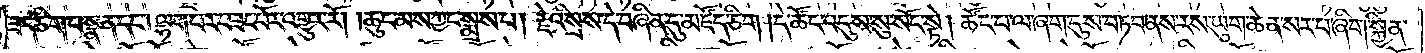ཟད་ཅིག་བསྣན་དང༌། ལྷག་པར་བཟང་པོར་འགྱུར་རོ། །ཆུང་མས་ཀྱང་སྨྲས་པ། རྗེའི་སྲས་དེ་བཞིན་དུ་མཛོད་ཅིག །དེ་ཚོང་འདུས་སུ་སོང་སྟེ། ཚོང་པ་ལ་ཞག་དུས་བཏབ་ནས་རས་ཡུག་ཆེན་སར་པ་ཞིག་སྐྱིན་
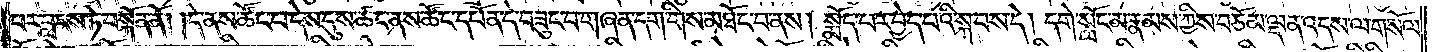པར་བླངས་ཏེ་བསྐོན་ནོ། །དེ་ནས་ཚོང་པ་དེས་དུས་ཚང་ནས་ཚོང་དཔོན་དེ་བཟུང་བ་གཞན་དག་གིས་མཐོང་བ་ནས། སྨོད་པར་བྱེད་པའི་སྐབས་དེ། དགེ་སློང་མ་རྣམས་ཀྱིས་བཅོམ་ལྡན་འདས་ལ་གསོལ་
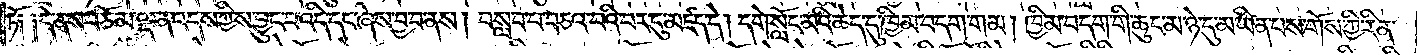ཏོ༑ ༑དེ་ནས་བཅོམ་ལྡན་འདས་ཀྱིས་བྱུང་བ་འདི་དང་ཞེས་བྱ་བ་ནས། བསླབ་པ་བཅའ་བའི་བར་དུ་མཛད་དེ། དགེ་སློང་མའི་ཆེད་དུ་ཁྱིམ་བདག་གམ། ཁྱིམ་བདག་གི་ཆུང་མ་ཉེ་དུ་མ་ཡིན་པས་གོས་ཀྱི་རིན་
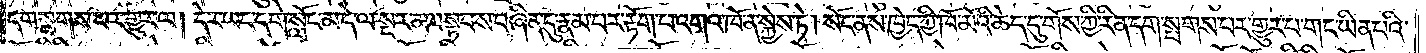དག་སྦགས་པར་གྱུར་ལ། དེར་ཡང་དགེ་སློང་མ་དེ་ལ་སྔར་མ་བསྟབས་བཞིན་དུ་རྣམ་པར་རྟོག་པ་འགའ་ཁོ་ན་སྐྱེས་ཏེ། སོང་ནས་ཁྱེད་ཀྱི་ཁོ་མོའི་ཆེད་དུ་གོས་ཀྱི་རིན་དག་སྤགས་པར་གྱུར་པ་གང་ཡིན་པའི་
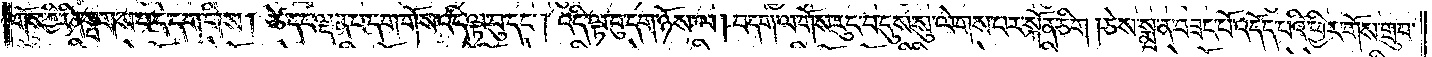གོས་ཀྱི་རིན་སྤགས་པ་དེ་དག་གིས། ཚེ་དང་ལྡན་པ་དག་གོས་འདི་ལྟ་བུ་དང༌། འདི་ལྟ་བུ་དག་ཉོས་ལ། བདག་ལ་གོས་རུང་བ་དུས་སུ་ལེགས་པར་སྐོན་ཅིག །ཅེས་སྨྲ་ན་བཟང་པོ་འདོད་པའི་ཕྱིར་གོས་གྲུབ་
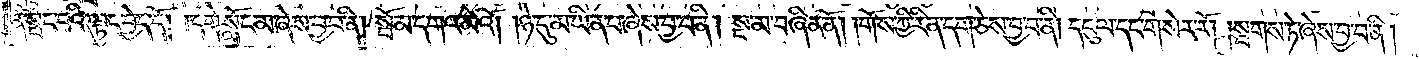ན་སྤང་བའི་ལྟུང་བྱེད་དོ། །དགེ་སློང་མ་ཞེས་བྱ་བ་ནི། སྦོམ་དགའ་མོའོ། །ཉེ་དུ་མ་ཡིན་པ་ཞེས་བྱ་བ་ནི། སྔ་མ་བཞིན་ནོ། །གོས་ཀྱི་རིན་དག་ཅེས་བྱ་བ་ནི། དངུལ་དང་གསེར་རོ། །སྦགས་ཏེ་ཞེས་བྱ་བ་ནི །
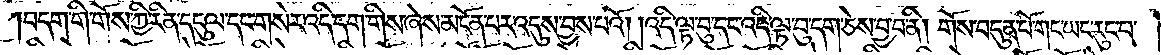བདག་གི་གོས་ཀྱི་རིན་དངུལ་དང་གསེར་འདི་དག་གིས་ཞེས་མངོན་པར་འདུས་བྱས་པའོ། །འདི་ལྟ་བུ་དང་འདི་ལྟ་བུ་དག་ཅེས་བྱ་བ་ནི། གོས་བདུན་པོ་གང་ཡང་རུང་བ་
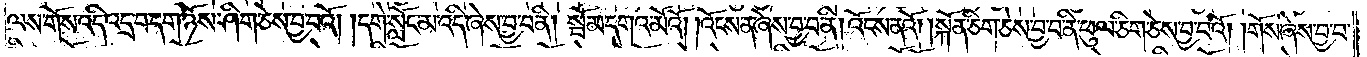ལས་གོས་འདི་འདྲ་བ་དག་ཉོས་ཤིག་ཅེས་བྱ་བའོ། །དགེ་སློང་མ་འདི་ཞེས་བྱ་བ་ནི། སྦོམ་དགའ་མོའོ། །འོངས་ན་ཞེས་བྱ་བ་ནི། འོངས་ནའོ། །སྐོན་ཅིག་ཅེས་བྱ་བ་ནི་ཕུལ་ཅིག་ཅེས་བྱ་བའོ། །གོས་ཞེས་བྱ་བ་
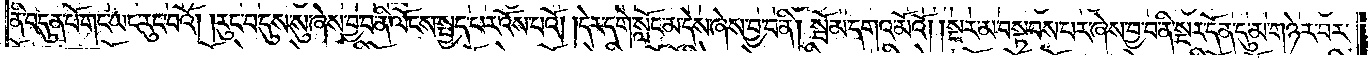ནི་བདུན་པོ་གང་ཡང་རུང་བའོ། །རུང་བ་དུས་སུ་ཞེས་བྱ་བ་ནི་ལོངས་སྤྱད་པར་འོས་པའོ། །དེར་དགེ་སློང་མ་དེས་ཞེས་བྱ་བ་ནི། སྦོམ་དགའ་མོའོ། །སྔར་མ་བསྟབས་པར་ཞེས་བྱ་བ་ནི་སྔར་དོན་དུ་མ་གཉེར་བར་
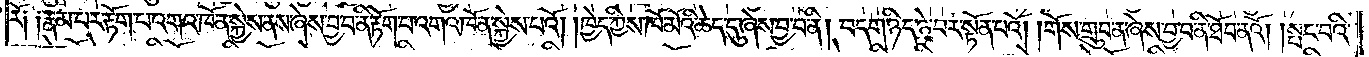རོ༑ ༑རྣམ་པར་རྟོག་པ་འགའ་ཁོ་ན་སྐྱེས་ནས་ཞེས་བྱ་བ་ནི་རྟོག་པ་འགའ་ཁོ་ན་སྐྱེས་པའོ། །ཁྱེད་ཀྱིས་ཁོ་མོའི་ཆེད་དུ་ཞེས་བྱ་བ་ནི། བདག་ཉིད་ཉེ་བར་སྟོན་པའོ། །གོས་གྲུབ་ན་ཞེས་བྱ་བ་ནི་ཐོབ་ནའོ། །སྤང་བའི་
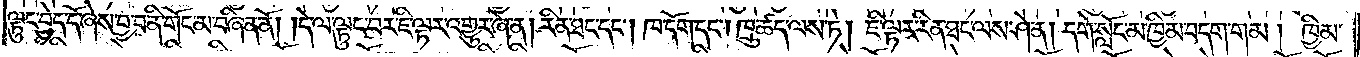ལྟུང་བྱེད་དོ་ཞེས་བྱ་བ་ནི་གོང་མ་བཞིན་ནོ། །དེ་ལ་ལྟུང་བར་ཇི་ལྟར་འགྱུར་ཞེ་ན། རིན་ཐང་དང༌། ཁ་དོག་དང༌། ཁྲུ་ཚད་ལས་ཏེ། ཇི་ལྟར་རིན་ཐང་ལས་ཤེ་ན། དགེ་སློང་མ་ཁྱིམ་བདག་གམ། ཁྱིམ་
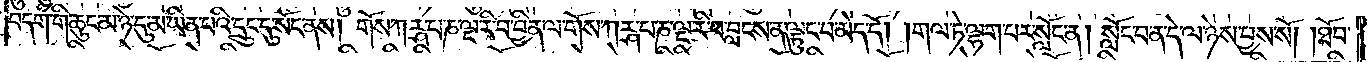བདག་གི་ཆུང་མ་ཉེ་དུ་མ་ཡིན་པའི་དྲུང་དུ་སོང་ནས། གོས་ཀཪྴ་པ་ཎ་ལྔ་རི་བ་བྱིན་ལ་གོས་ཀཪྴ་པ་ཎ་ལྔ་རི་བ་བླངས་ན་ལྟུང་བ་མེད་དོ། །གལ་ཏེ་ལྷག་པར་སློང་ན། སློང་བ་ན་དེ་ལ་ཉེས་བྱས་སོ། །ཐོབ་
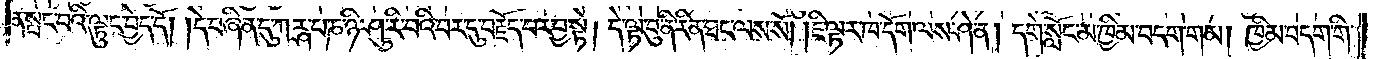ན་སྤང་པའི་ལྟུང་བྱེད་དོ། །དེ་བཞིན་དུ་ཀཪྴ་པ་ཎ་ཉི་ཤུ་རི་བའི་བར་དུ་བརྗོད་པར་བྱ་སྟེ། དེ་ལྟ་བུ་ནི་རིན་ཐང་ལས་སོ། །ཇི་ལྟར་ཁ་དོག་ལས་ཤེ་ན། དགེ་སློང་མ་ཁྱིམ་བདག་གམ། ཁྱིམ་བདག་གི་
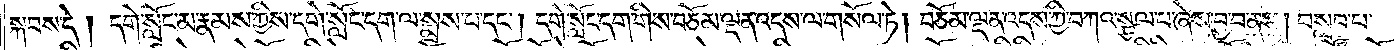སྐབས་དེ། དགེ་སློང་མ་རྣམས་ཀྱིས་དགེ་སློང་དག་ལ་སྨྲས་པ་དང༌། དགེ་སློང་དག་གིས་བཅོམ་ལྡན་འདས་ལ་གསོལ་ཏེ། བཅོམ་ལྡན་འདས་ཀྱི་བཀའ་སྩལ་པ་ཞེས་བྱ་བ་ནས། བསླབ་པ་
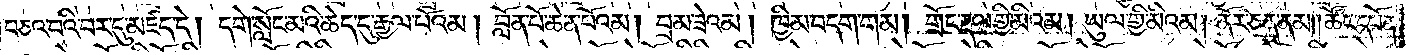བཅའ་བའི་བར་དུ་མཛད་དེ། དགེ་སློང་མའི་ཆེད་དུ་རྒྱལ་པོའམ། བློན་པོ་ཆེན་པོའམ། བྲམ་ཟེའམ། ཁྱིམ་བདག་གམ། གྲོང་རྡལ་གྱི་མིའམ། ཡུལ་གྱི་མིའམ། ནོར་ཅན་ནམ། ཚོང་དཔོན་
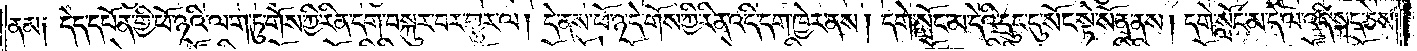ནམ༑ དེད་དཔོན་གྱི་ཕོ་ཉའི་ལག་ཏུ་གོས་ཀྱི་རིན་དག་བསྐུར་བར་གྱུར་ལ། དེ་ནས་ཕོ་ཉ་དེ་གོས་ཀྱི་རིན་འདི་དག་ཁྱེར་ནས། དགེ་སློང་མ་དེའི་དྲུང་དུ་སོང་སྟེ་སོན་ནས། དགེ་སློང་མ་དེ་ལ་འདི་སྐད་ཅེས།
